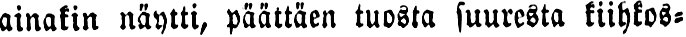ainakin näytti, päättäen tuosta suuresta kiihkos-
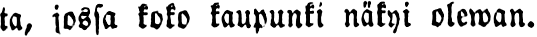ta, jossa koko kaupunki näkyi olewan.
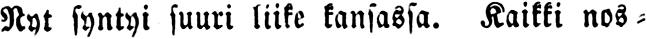Nyt syntyi suuri liike kansassa. Kaikki nos-
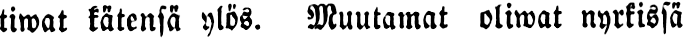tiwat kätensä ylös. Muutamat oliwat nyrkissä
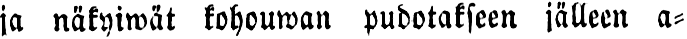ja näkyiwät kohouwan pudotakseen jälleen a-
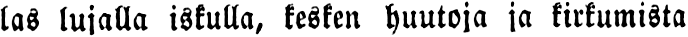las lujalla iskulla, kesken huutoja ja kirkumista
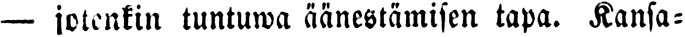— jotenkin tuntuwa äänestämisen tapa. Kansa-
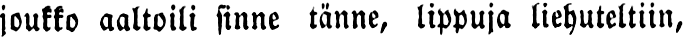joukko aaltoili sinne tänne, lippuja liehuteltiin,
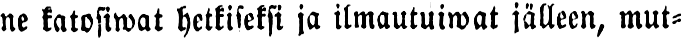ne katosiwat hetkiseksi ja ilmautuiwat jälleen, mut-
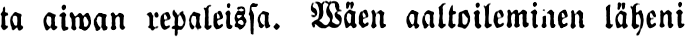ta aiwan repaleissa. Wäen aaltoileminen läheni
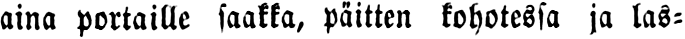aina portaille saakka, päitten kohotessa ja las-
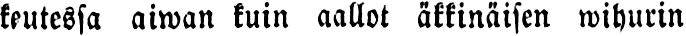keutessa aiwan kuin aallot äkkinäisen wihurin
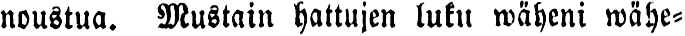noustua. Mustain hattujen luku wäheni wähe-
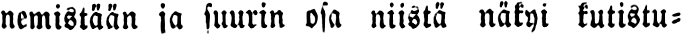nemistäkin ja suurin osa niistä näkyi kutistu-
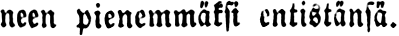neen pienemmäksi entistänsä.
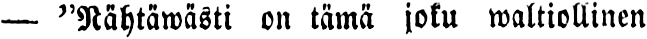— "Nähtäwästi on tämä joku waltiollinen
